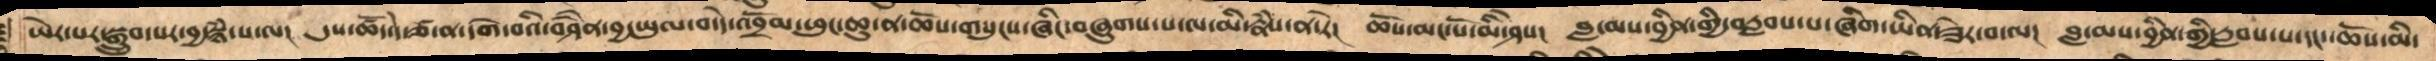ཡེར་པར་སྒྲུབ་པར་བྱ་སྙཾ་པ་ལ།  དུས་ཚོད་དེ་ཙ་ན་དགེ་བའི་བཤཻན་བྱ་ཡུལ་བ་དེ་འབྲོམ་ཕུང་ཆུ་ན་ཆོས་གསུངས་ཞིང་བཞུགས་པ་ལ་མི་རྣཾས་ན་རེ། ཆོས་མང་པོ་མི་ཤེས།   བླ་མས་བྱིན་གྱི་བརླབས་པ་ཞིག་ཡིན་ཟེར་བ་ལ།   བླ་མས་བྱིན་གྱི་རླབས་པ་དང་ཆོས་མི་
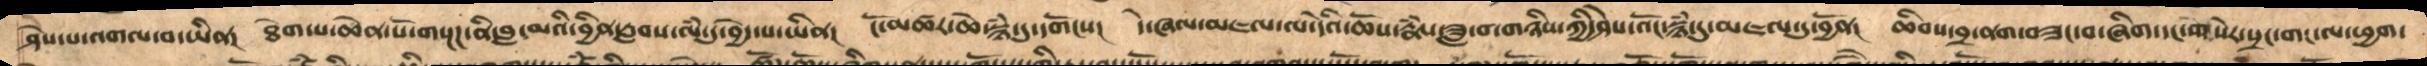ཤེས་པ་འགལ་བ་ཡིན།  ཐེག་པ་ཆེན་པོ་གསྔཌ་ནི་བླ་མའི་བྱིན་རླབས་ལཾ་དུ་བྱེད་པ་ཡིན།   ངོ་མཚར་ཆེ་སྙཾ་དུ་དགོངས།  དེ་ཞལ་མཇལ་ལ་དེའི་ཆོས་རྣཾས་ཟླ་བ་གཉིས་ཀྱི་ཤེས་འོང་སྙཾ་དུ་མཇལ་དུ་བྱོན།   ཆིབས་བྲ་ནག་བཟང་བ་ཞིག་དང་གསེར་སྲང་གང་ལ་ཕྱག
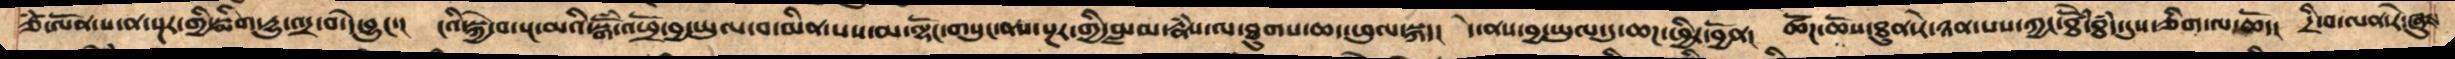ཙཾ་ལོན་པ་ན་སྔར་གྱི་སྨིག་དྱུ་འདྲ་བ་དེ་བྱུང་།   ངའི་སྐྱེ་བ་སྔ་མའི་སྒོཾ་འཕྲོ་བྱ་ཡུལ་བ་མིན་པས་མ་ལྷོང་གསུང་ནས་སྔར་གྱི་བླ་མ་རྣཾས་ལ་ཐུགས་ཆད་འཕུལ་སྐད། དེ་ནས་བྱ་ཡུལ་དུ་ཆཌ་ཕྱིར་བྱོན།  ཚོཌ་ཆོས་ཐུན་རེ་ཉན་པས་ཀྱང་ཐེཚོཾ་ཐཾད་དུས་ཅིག་ལ་ཆོད།  དྲི་བ་ལན་རེ་ཞུས་
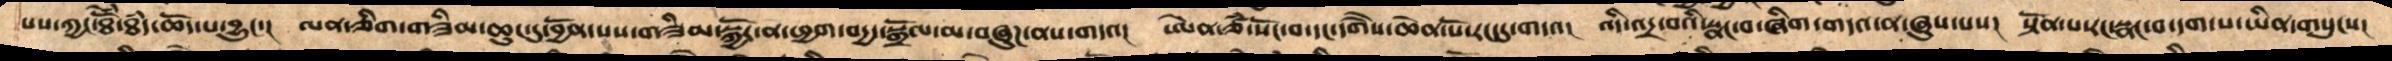པས་ཀྱང་ཐེཚོྃ་ཐདཾ་ཆོད་པ་བྱུང་།  ལན་ཅིག་གཟིམ་ཆུང་དུ་བྱོན་པས་གཟིམ་སྐྱོར་ན་ཕྱག་བདྱ་སྒྲོལ་མ་བཞུཌ་ནས་གདའ།   ཨེན་ཙཾ་སོང་བ་དང་དགཻས་ཆེན་པོ་རང་དུ་གདའ།  འདི་འདྲ་བའི་སྣང་བ་ཞིག་གདའ་ན་ཞུས་པས།  སྟོན་པ་རང་སྣང་བ་དག་པ་ཡིན་གསུངས།
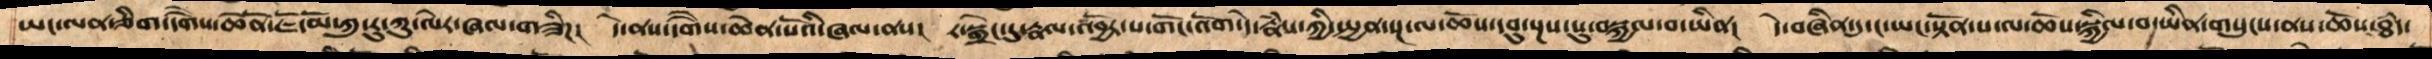ཡང་ལན་ཅིག་དགཻས་ཆེནོ་ཇོ་མོ་ཀུ་རུ་ཀུ་ལེར་ཞལ་གཟིཌ།   དེ་ནས་དགཻས་ཆེན་པོའི་ཞལ་ནས།  ར་སྒྲེང་དུ་རྣལ་འབྱོར་པ་གོང་འོག་དེ་རྣཾས་ཀྱི་སྤྱན་སྔ་ལ་ཆོས་དབུ་སྔས་སུ་བསྐྱལ་བ་ཡིན།   དེ་བཞིན་དུ་ང་ཡང་སྟོན་པ་ལ་ཆོས་སྐྱིལ་བ་ཡིན་གསུངས་ནས་ཆོས་ཐཾད་
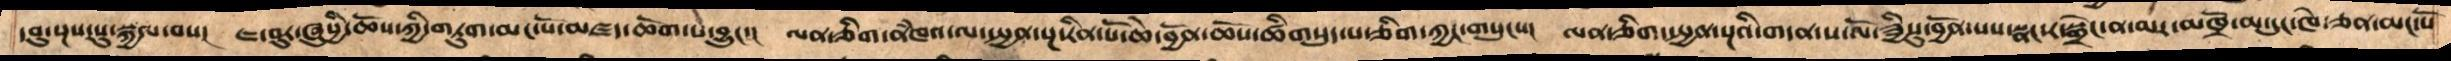དབུ་སྔས་སུ་སྐྱལ་བས།   ཇ་བུར་ཞུསྱི་ཆོས་ཀྱི་གཏུག་མང་པོ་མཛད་ཆོག་པ་བྱུང་།  ལན་ཅིག་ནཾཁའ་ལ་སྤྱན་སྔ་རིན་པོ་ཆེ་བྱོན་ཆོས་ཚིགསུད་པ་ཅིག་ཀྱང་གསུངས།  ལན་གཅིག་སྤྱན་སྔའི་གདན་ས་ལོ་ཟྱིསུ་བྱོན་པས་སྣང་ར་སྒྲེང་ན་མར་མཁྲོ་མ་དུང་ཁེ་ཅན་མང་པོ་
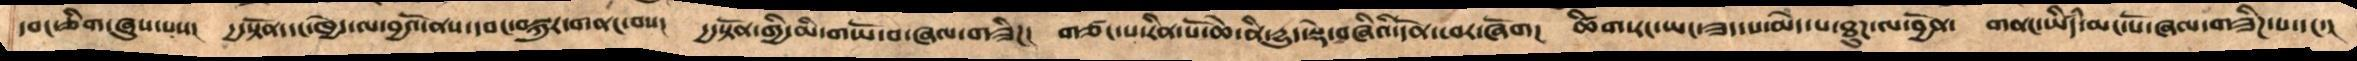དབང་ཅིག་ཞུས་པས།   དྱ་སྟོན་དང་ཁྱེད་ལ་བྱའོ་ནས་དབང་བསྐུར་གནང་བས།   དྱ་སྟོན་གྱི་མི་གཡོ་བ་ཞལ་གཟིཌ།  གཙང་པ་རིན་པོ་ཆེ་ནི་དྱུད་སྡེ་བཞིའི་དོན་ཕར་ཞོག།  ཚིག་རང་ཡང་ཟད་པ་མེད་པ་ཐུཌ་ལ་བྱོན།  གནང་ཡིདཾ་མང་པོ་ཞལ་གཟིཌ་པ་དང་།
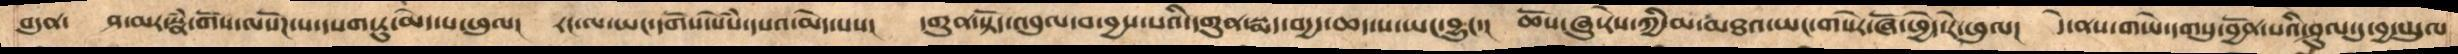བདུན།  ཤ་མར་སྣཾ་གོས་ལསོཌ་པ་དཔག་ཏུ་མེད་པ་ཕུལ།   རང་ལ་ཡང་དགོས་སེསཾ་དཔའ་མེད་པས།   དགུན་སྟོད་འབུལ་བ་བྱས་པའི་དགུན་སྨད་བདྱད་ཆད་པ་ཡང་བྱུང་།   ཆོས་ཞུ་རེས་ཀྱི་མ་མཐའ་ཡང་གསེར་ཞོ་ཕྱེད་རེ་ཕུལ།   དེ་ནས་གཡེ་དགསུ་བྱོན་པའི་ཤུལ་དུ་བྱ་ཡུལ
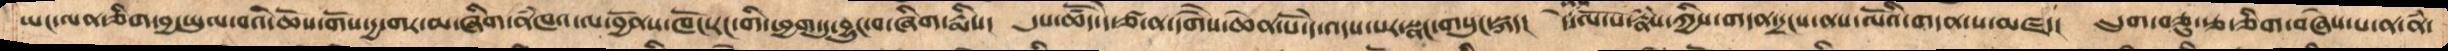ཡང་ལན་ཅིག་བྱ་ཡུལ་བའི་ཆོས་གོས་དྱ་གར་མ་ཞིག་ནཾཁའ་ལ་བྱོནས་ཁོང་རང་གི་ཕྱག་དུ་བྱུང་བ་ཞིག་རྨིས།   དུས་ཚོད་དེ་ཙ་ན་དགཻས་ཆེན་པོ་དེ་འདས་པར་སྣང་གསུང་སྐད།  དེ་ནས་ལོ་པ་རྣཾས་ཀྱིས་གདན་དྲངས་ནས་ལོའི་གདན་ས་མཛད།   དྲུག་བཅུ་རྩ་ཅིག་བཞེས་པ་ན་ནཾ་
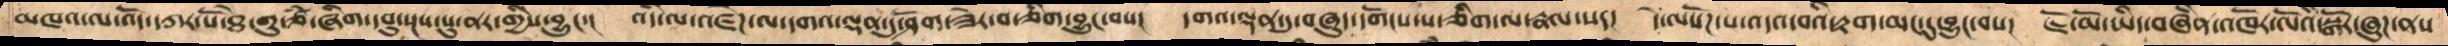མཁའ་ལ་འོད་དཀར་པོ་ཐེ་གུ་ཙཾ་ཞིག་དབུ་སྔས་སུ་ནར་གྱིས་བྱུང་།  འདི་ལ་འཛེཌ་ལ་དགའ་ལྡན་དུ་ཤོག་ཟེར་བ་ཅིག་བྱུང་བས།  དགའ་ལྡན་དུ་བཞུད་དགོངས་པ་ཅིག་ལ་རྣལ་སད།  དེ་ལསོཌ་པ་འདའ་བའི་རྟག་མང་དུ་བྱུང་བས།  ཇོ་མོ་ཡིད་བཞིན་འཁོར་ལོའི་སྒོར་ཞུཌ་ནས
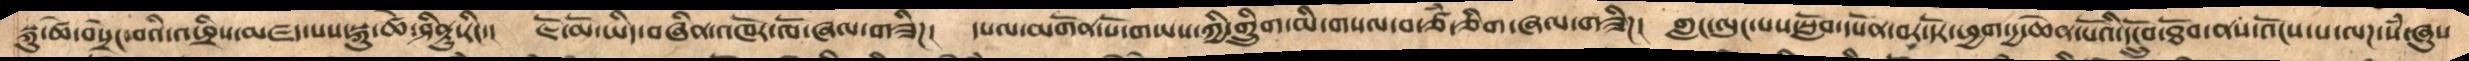སྐུ་ཚེ་བསྲེང་བའི་འཕྲིས་མཛད་པས་སྐུ་ཚེ་ཤིནྟུ་རིང་།   ཇོ་མོ་ཡིད་བཞིན་འཁོར་ལོ་ཞལ་གཟིཌ།  དཔལ་མགོན་པོ་གཡས་ཀྱི་གྲིུག་མི་གསལ་བ་ཙཾ་ཅིག་ཞལ་གཟིཌ།  གླང་ལུང་པས་སློབ་དཔོན་བར་དོར་ཕྱག་དྱ་ཆེན་པོའི་དངྲོུབ་ཐོབ་ནས་འོངས་པ་ལཌ་སཾ་ཞུས
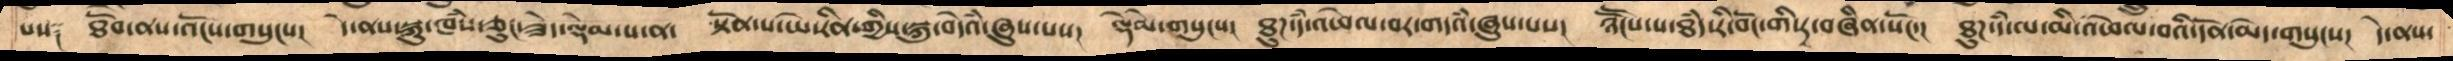པས༑ ཐོབ་ནས་འོངས་གསུངས།  དེ་ནས་སྐུ་ཁཾས་ཅུང་ཟེད་ལྟེམ་པ་ན་  སྟོན་པ་ཡེ་རིན་གྱིས་སྐུ་བདེའཾ་ཞུས་པས།  ལྟེམེ་གསུངས།  ཐུཌ་དཾ་འཕེལ་བར་གདའཾ་ཞུས་པས།  ཉཽངས་པ་ཐཾད་རི་བོང་གི་རྭ་བཞིན་སོང་།  ཐུཌ་དཾ་ལ་མི་འཕེལ་བའི་དོན་མེད་གསུངས།  དེ་ནས་
